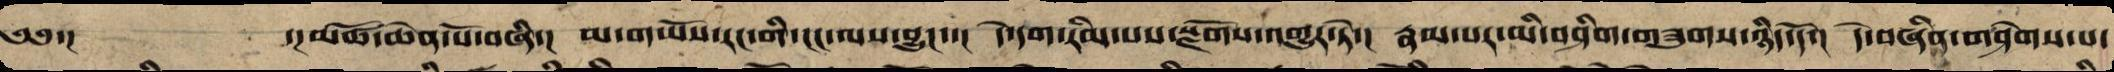༄༅་། ་།མཚོ་ཆེན་པོ་བཞི་། མ་གཡོས་རང་གི་ངང་ལས་བྱུང་་། དེ་དག་རིམ་པས་སྫོགས་འགྱུར་ཏེ་། རྣམ་པར་མི་བཤིག་གཟུགས་ཉིད་དོ་། དེ་བཞིན་གཤེགས་པ་
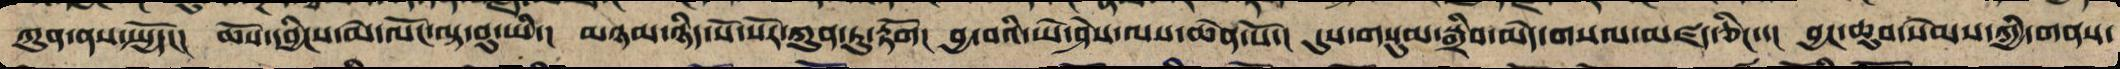ཀུན་ནས་སྤྱོད་། ཆོས་དབྱིངས་མེ་ལོང་ལྟ་བུ་ཡི་། མཉམ་ཉིད་སོ་སོར་ཀུན་ཏུ་རྟོག། བྱ་བའི་ཡེ་ཤེས་ལས་ཆེན་པོ་། དུས་གསུམ་སྒྲིབ་མེད་གསལ་མཛད་ཅིང་་། བྱང་ཆུབ་སེམས་ཀྱི་གནས་
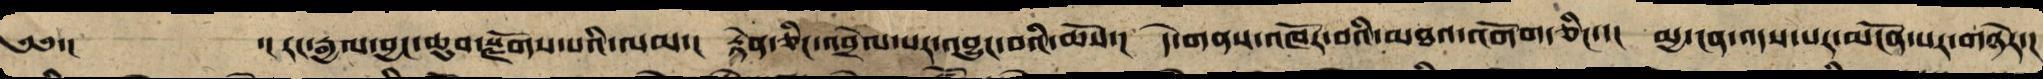༄༅་། ་།རང་རྒྱལ་བྱང་ཆུབ་སྫོགས་པའི་ལམ་། རྟེན་ཅིང་འབྲེལ་པར་འབྱུང་བའི་ཆོས་། དེ་གནས་འཁོར་བའི་མཐའ་འགོག་ཅིང་་། མྱ་ངན་འདས་པར་མངོན་པར་གཉེར་།
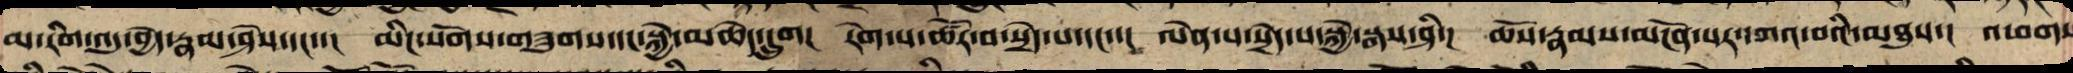མ་རིག་འདུ་བྱེད་རྣམ་ཤེས་དང་། མིང་སོགས་གཟུགས་དང་སྐྱེ་མཆེད་དྲུག། རེག་པ་ཚོར་བ་སྲེད་པ་དང་་། ལེན་པ་སྲིད་པ་སྐྱེ་རྒས་ཤི་། ཆོས་རྣམས་མངོན་པར་དགའ་བའི་མཐུས་། འཕགས
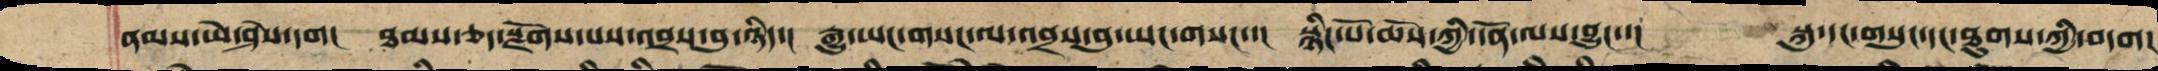ནམས་ཡེ་ཤེས་དག། ཐམས་ཅད་སྫོགས་པས་འབྲས་བུ་ཉིད་། རྒྱུ་ཡང་གསང་ལ་འབྲས་བུ་ཡང་གསང་་། སྙིང་པོ་ཆོས་ཀྱི་དོན་ལས་བྱུང་་།        སྐུ་དང་གསུང་དང་ཐུགས་ཀྱི་བདག།
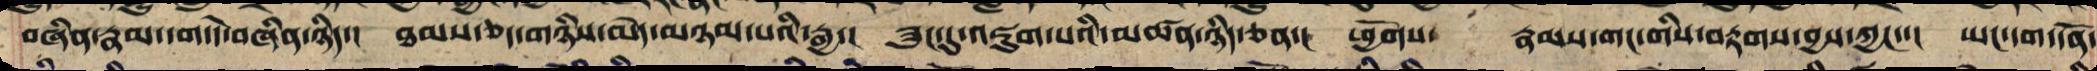བཞིན་རྣམ་དག་དེ་བཞིན་ཉིད་། ཐམས་ཅད་གཉིས་མེད་མཉམ་པའི་རྒྱ་། ཟུང་དུ་འཇུག་པའི་མཚན་ཉིད་ཅན་། ཕྱོགས་རྣམས་གང་གིས་བརྟགས་བྱས་ཀྱང་་། ཡང་དག་དོན་
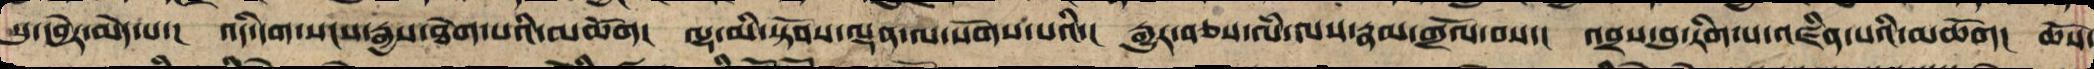སུ་དབྱེར་མེད་པ་། འདི་དག་སངས་རྒྱས་ཐེག་པའི་མཆོག། ལྷ་མི་སྟོབས་ལྡན་ལ་སོགས་པའི་། རྒྱུར་བཅས་ལཾ་ལས་རྣམ་གྲོལ་བས་། འབྲས་བུ་རིག་པ་འཛིན་པའི་མཆོག། ཆོས་
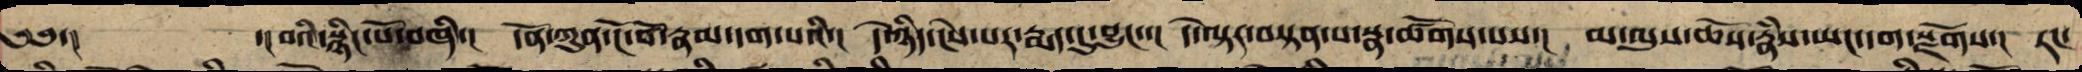༄༅་། ་།བའི་སྙིང་པོ་བཞི་། དོན་ཀུན་ངོ་བོ་རྣམ་དག་པའི་། དེ་ཉིད་ངེས་པར་རྨད་དུ་བྱུང་་། དེ་ལྟར་བསྟན་པ་སྣ་ཚོགས་པས་། མ་ལུས་ཆོས་རྣཾས་ཡང་དག་སྫོགས་། རང་
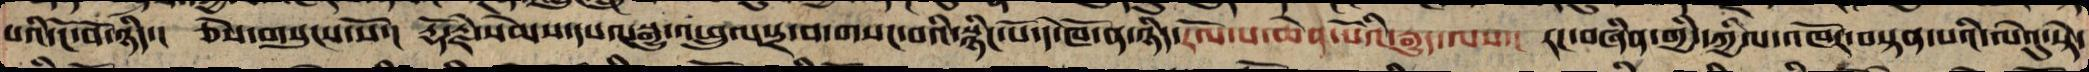པའི་ངོ་བོ་ཉིད་། ཅེས་གསུངས་སོ་། རྡོ་རྗེ་སེམས་དཔའ་སྒྱུ་འཕྲུལ་དྲ་བ་གསང་བའི་སྙིང་པོ་དེ་ཁོ་ན་ཉིད་རོལ་པ་ཆེན་པོའི་རྒྱུད་ལས་། རང་བཞིན་གྱི་དཀྱིལ་འཁོར་བསྟན་པའི་ལེའུ་སྟེ་
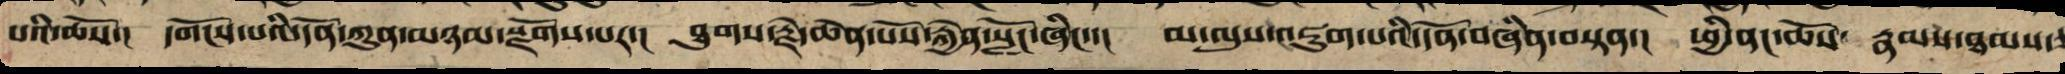པའི་ཆོས་། དགོངས་པའི་དོན་ཀུན་མཉམ་སྫོགས་པར་། ཐུགས་རྗེ་ཆེན་པོས་རྐྱེན་སློང་ཞིང་་། མ་ལུས་འཇུག་པའི་དོན་བཞིན་བསྟན་། ཕྱི་ནང་ཆོས་རྣམས་ཐམས་ཅ
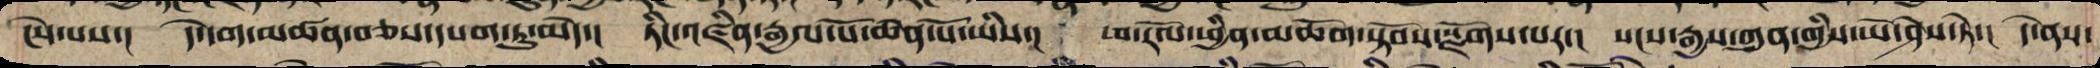ངེས་པས་། དེ་དག་མཚན་བཅས་དཔག་ཏུ་མེད་། ཏིང་འཛིན་རྒྱལ་པོ་ཆེན་པོ་ཡིས་། ཕ་རོལ་ཕྱིན་མཆོག་སྟོབས་སྫོགས་པར་། སངས་རྒྱས་ཀུན་གྱིས་ཡེ་ཤེས་ཏེ་། དེ་ནས་
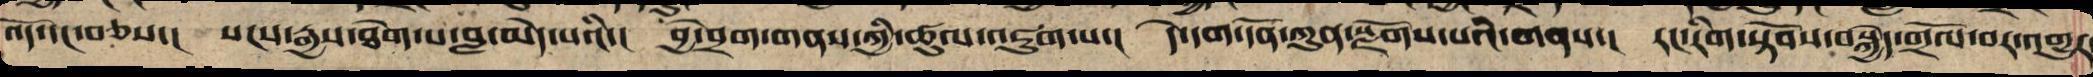འོད་དང་བཅས་། སངས་རྒྱས་ཐེག་པ་བླ་མེད་པའི་། བྱེ་བྲག་གནས་ཀྱི་ཚུལ་འཇུག་པ་། དེ་དག་དོན་ཀུན་སྫོགས་པའི་གནས་། རང་རིག་སྟོབས་བསྐྱེད་གྲོལ་བར་འགྱུར
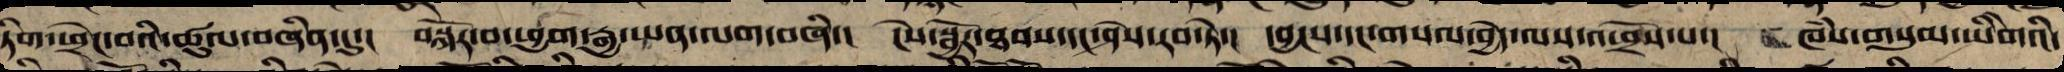ཏིག་ཕྲེང་བའི་ཚུལ་བཞིན་དུ་། བསྐོར་བ་ཕྱག་རྒྱ་ཡན་ལག་བཞི་། ངེས་སྦྱོར་ཐབས་དང་ཤེས་རབ་སྟེ་། དབྱངས་དང་གསལ་བྱེད་ལས་འཕྲོས་པ་། ཁཾས་གསུམ་ཡིགེའི་
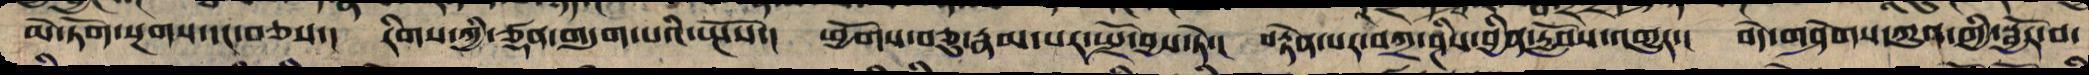མེ་ཏོག་སྔགས་དང་བཅས་། རིགས་ཀྱི་ཙྡན་བདུག་པའི་སྤོས་། ཕྱོགས་བཅུ་རྣམ་པར་སྤྲོ་བྱས་ཏེ་། བརྟེན་པར་བཀྲ་ཤིས་བྱིན་རློབས་འགྱུར་། བདེ་གཤེགས་ཀུན་གྱི་སྦྱོར་བ་
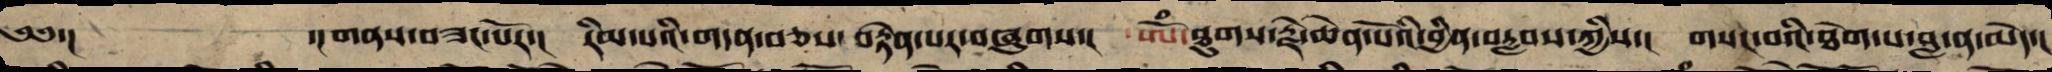༄༅་།         ་།གནས་བཟང་པོར་། རིམ་པའི་གདན་བཅས་བརྟེན་པར་བཞུགས་། ཨོཾ་ཐུགས་རྗེ་ཆེན་པོའི་བྱིན་བརླབས་ཀྱིས་། གསང་བའི་ཐེག་པ་བླ་ན་མེད་།
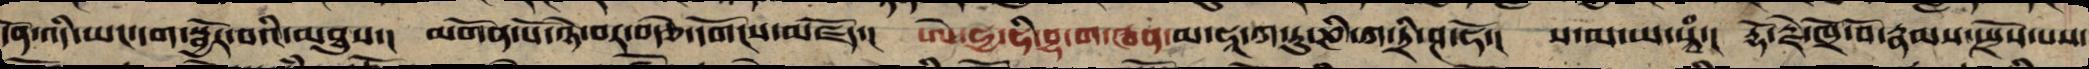དོན་འདི་ཡང་དག་སྦྱོར་བའི་མཐུས་། མགོན་པོ་ཉེ་བར་བརྩེ་དགོངས་མཛོད་། ཨེ་ཧྱ་ཧི་བྷ་ག་ཝན་མ་ཧཱ་ཀ་རུ་ཎི་ཀ་ཏྲི་ཤ་ཧོ་། ས་མ་ཡ་སྭཾ། རྡོ་རྗེ་ཁྲོ་བོ་རྣམས་སྤྲོས་པས་
